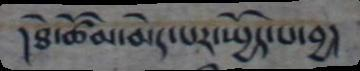།ཐེ་ཚོམ་མེད་པར་སྤྱོད་པ་བྱ།
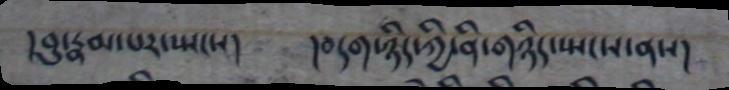དབུ་རྣམ་པར་སྤངས། །བདག་ཉིད་ཀྱི་ནི་གཉིད་སྤངས་ནས།
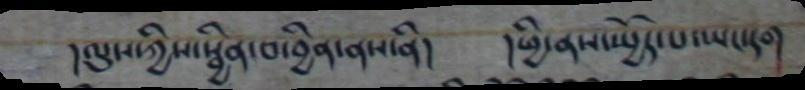།ལུས་ཀྱིས་སྦྱིན་བ་བྱིན་ནས་ནི། །ཕྱི་ནས་སྤྱོད་པ་ཡང་དག
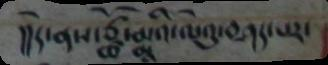།།དེ་ནས་ཙྪོ་མྨའི་ལེའུ་བཤད་པར་
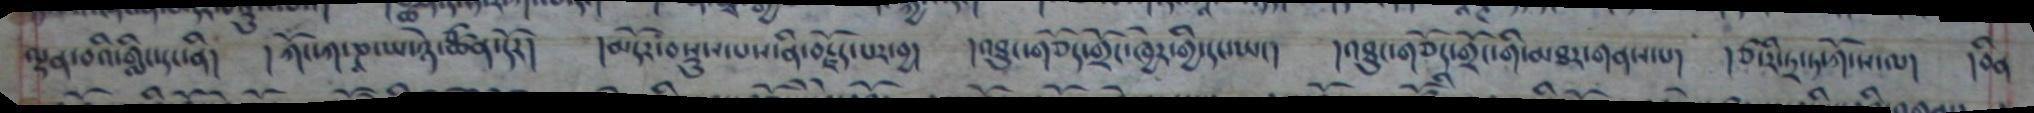ལྡན་བའི་གླིང་དང་ནི། །ཀོ་ཀ་ཎ་ཡ་ཉེ་ཙྪན་དོར། །མདོར་བསྡུས་པས་ནི་བརྗོད་པར་བྱ། །འཐུང་གཅོད་གྲོང་ཁྱེར་གྱི་དང་ཡང། །འཐུང་གཅོད་གྲོང་གི་མཐར་གནས་པ། །ཙ་རེ་ཏྲ་ཏ་ཀོ་ས་ལ། །བིན་
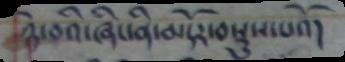ཉེ་བའི་ཞིང་ནི་མདོར་བསྡུས་པའོ།
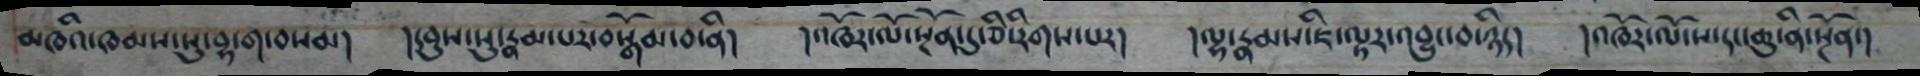མཁའི་ཁམས་སུ་བྷ་ག་བསམ། །དབུས་སུ་རྣམ་པར་བསྒོམ་བ་ནི། །འཁོར་ལོ་སྔོན་དུ་ཅི་རིགས་པར། །ལྷ་རྣམས་ཇི་ལྟར་འབྱུང་བ་ཉིད། །འཁོར་ལོ་ས་དང་ཆུ་ནི་སྔོན་།
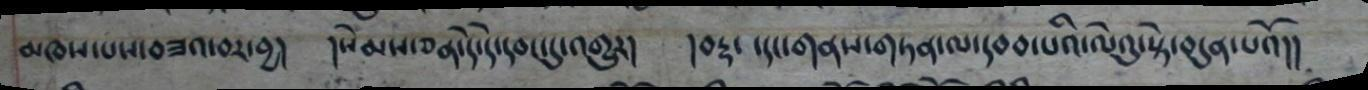མཁས་པས་བཟའ་བར་བྱ། །སེམས་ཅན་དེ་དེ་དབང་དུ་འགྱུར། །བརྡ་ ་དང་གནས་གཏན་ལ་དབབ་པའི་ལེའུ་སྟེ་བདུན་པའོ།།
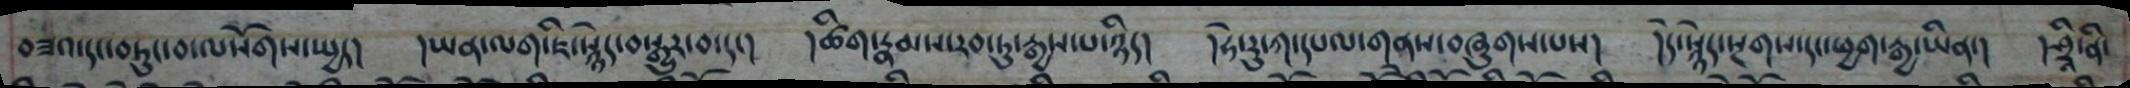བཟའ་དང་བཏུང་བ་ལསོགས་སྤྱད། །ཡན་ལག་ཇི་སྙེད་བསྒྱུར་བ་དང། །ཚིག་རྣམས་རབ་ཏུ་རྒྱས་པ་ཉིད། །ཧེ་རུ་ཀ་དཔལ་གནས་བཞུགས་པས། །དེ་སྙེད་སྔགས་དང་ཕྱག་རྒྱ་ཡིན། །ཤྲཱི་ནི་
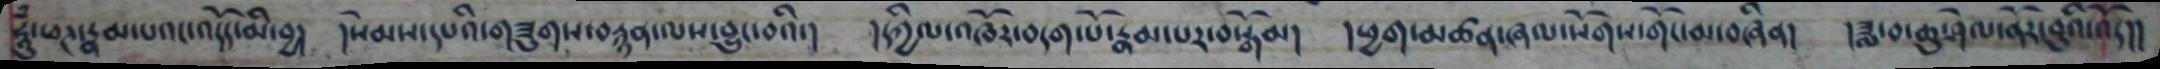ཧཱུཾ་ཕཊ་རྣམ་པའང་འདོད་མི་བྱ། །སེམས་དཔའི་གཟུགས་བརྙན་ལས་བྱུང་བའི་། །དཀྱིལ་འཁོར་བདག་པོ་རྣམ་པར་བསྒོམ། །ཕྱག་མཚན་ཞལ་སོགས་གོང་མ་བཞིན། །ཟླ་བ་ཆུ་ཤེལ་ནོར་བུའི་འོད།།
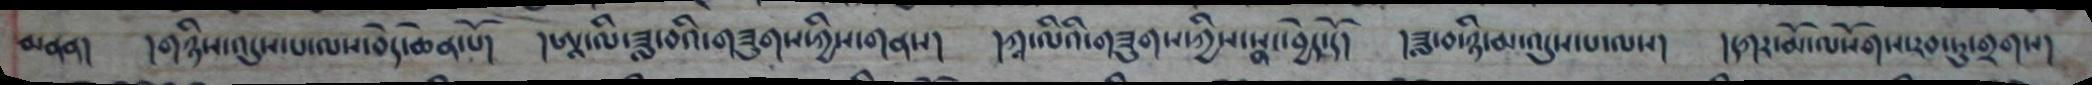མནན། །གཉིས་འདུས་པ་ལས་བདེ་ཆེན་པོ། །ཨཱ་ལི་ཟླ་བའི་གཟུགས་ཀྱིས་གནས། །ཀཱ་ལིའི་གཟུགས་ཀྱིས་སྣང་བྱེད་དོ། །ཟླ་བ་ཉི་མ་འདུས་པ་ལས། །དཀར་མོ་ལསོགས་རབ་ཏུ་གྲགས།
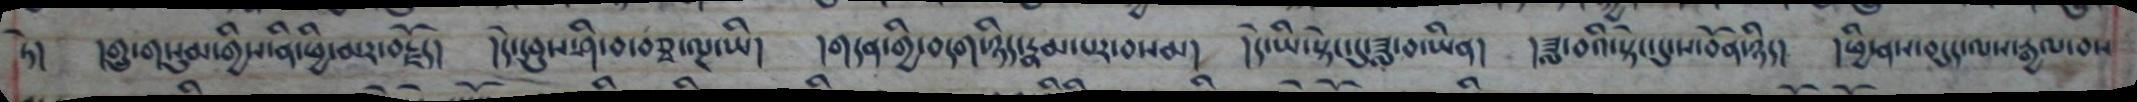ཏེ། །གྲུ་གསུམ་གྱིས་ནི་ཕྱི་མར་བརྗོད། །དེ་དབུས་ཤི་བ་བཅྭོ་ལྔ་ཡི། །གདན་གྱི་བདག་ཉིད་རྣམ་པར་བསམ། །དེ་ཡི་སྟེང་དུ་ཟླ་བ་ཡིན། །ཟླ་བའི་སྟེང་དུ་ས་བོན་ཉིད། །ཕྱི་ནས་བདུད་ལས་རྒྱལ་བས
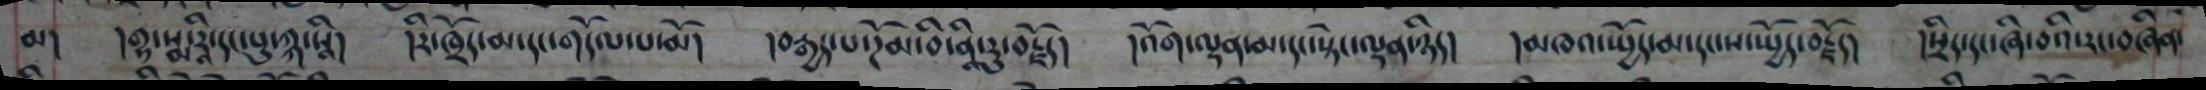མ། །གྷ་སྨ་རཱི་དང་པུ་ཀྐ་སཱི། །རི་ཁྲོད་མ་དང་གདོལ་པ་མོ། །བརྒྱད་པ་ཌོམ་བི་ནཱི་རུ་བརྗོད། །འོག་ལྡན་མ་དང་སྟེང་ལྡན་ཉིད། །མཁའ་སྤྱོད་མ་དང་ས་སྤྱོད་བརྗོད། །སྲིད་དང་ཞི་བའི་རང་བཞིན་
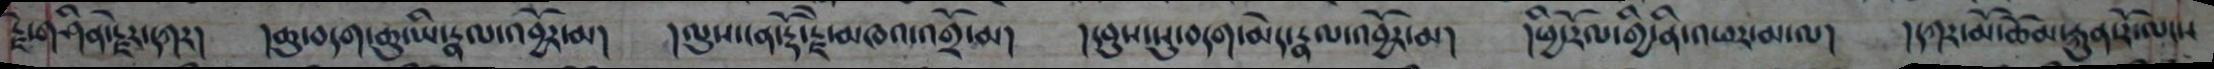རྗེ་གཤིན་རྗེར་དཀར། །ཆུ་བདག་ཆུ་ཡི་རྣལ་འབྱོར་མ། །ལུས་ན་རྡོ་རྗེ་མཁའ་འགྲོ་མ། །དབུས་སུ་བདག་མེད་རྣལ་འབྱོར་མ། །ཕྱི་རོལ་གྱི་ནི་འཕར་མ་ལ། །དཀར་མོ་ཆོམ་རྐུན་རོ་ལངས
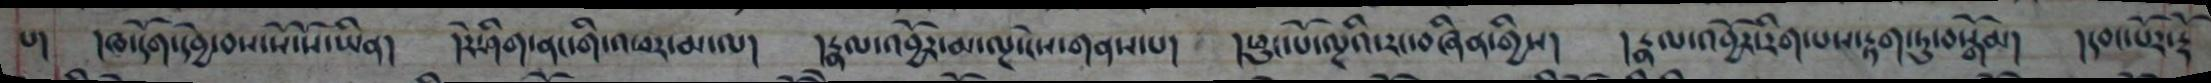པ། །ཁ་དོག་དབྱེ་བས་སོ་སོ་ཡིན། །རེ་ཤིག་ནང་གི་འཕར་མ་ལ། །རྣལ་འབྱོར་མ་ལྔ་ངེས་གནས་པ། །ཕུང་པོ་ལྔའི་རང་བཞིན་གྱིས། །རྣལ་འབྱོར་རིག་པས་རྟག་ཏུ་བསྒོམ། །དབང་པོར་རྡོ
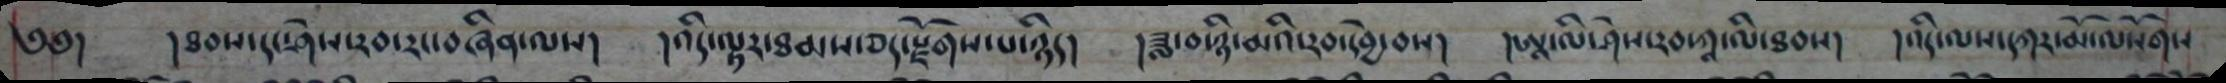༄༅། །ཐབས་དང་ཤེས་རབ་རང་བཞིན་ལས། །འདི་ལྟར་ཐམས་ཅད་སྫོགས་པ་ཉིད། །ཟླ་བ་ཉི་མའི་རབ་དབྱེ་བས། །ཨཱ་ལི་ཤེས་རབ་ཀཱ་ལི་ཐབས། །འདི་ལས་དཀར་མོ་ལསོགས
